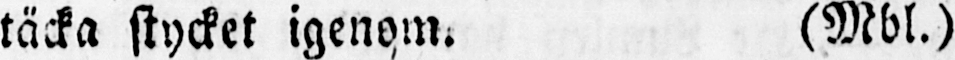täcka stycket igenom. (Mbl.)
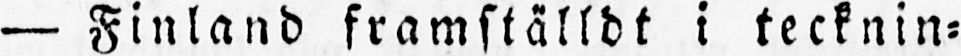— Finland framställdt i tecknin-
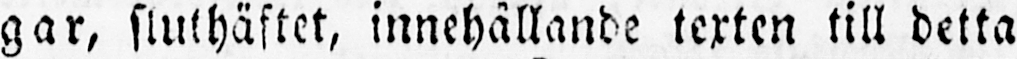gar, sluthäftet, innehållande texten till detta
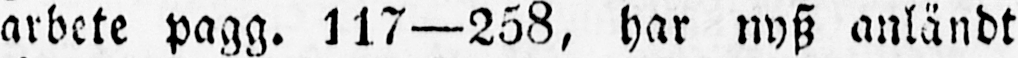arbete pagg. 117—258, har nysz anländt
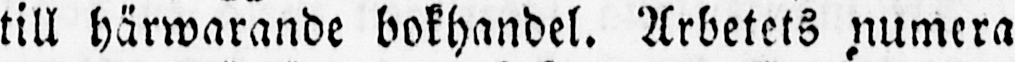till härwarande bokhandel. Arbetets numera
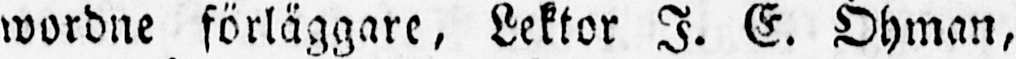wordne förläggare, Lektor I. E. Öhman,
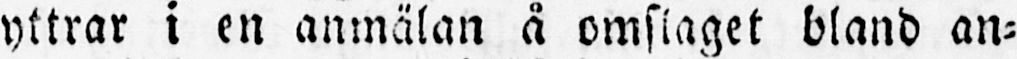yttrar i en anmälan å omslaget bland an-
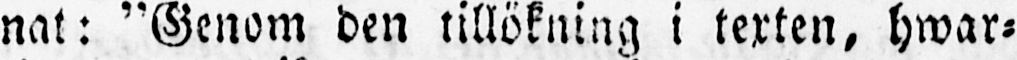nat: "Genom den tillökning i texten, hwar-
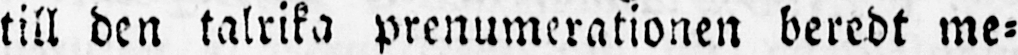till den talrika prenumerationen beredt me-
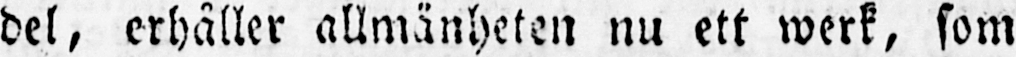del, erhåller allmänheten nu ett werk, som
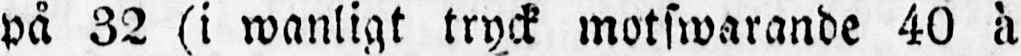på 32 (i wanligt tryck motswarande 40 à
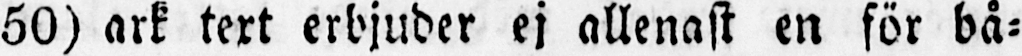50) ark text erbjuder ej allenast en för bå-
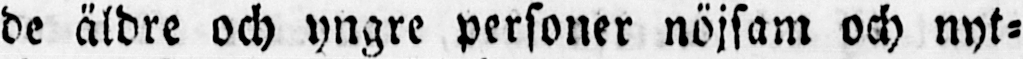de äldre och yngre personer nöjsam och nyt-
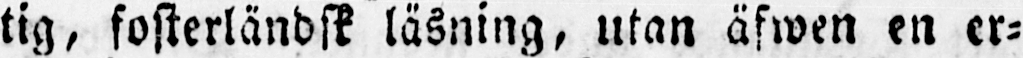tig, fosterländsk läsning, utan äfwen en er-
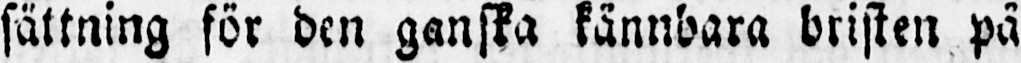sättning för den ganska kännbara bristen på
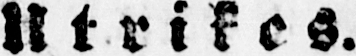Utrikes.
